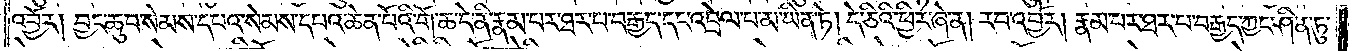འབྱོར། བྱང་ཆུབ་སེམས་དཔའ་སེམས་དཔའ་ཆེན་པོའི་གོ་ཆ་དེ་ནི་རྣམ་པར་ཐར་པ་བརྒྱད་དང་འབྲེལ་བ་མ་ཡིན་ཏེ། དེ་ཅིའི་ཕྱིར་ཞེ་ན། རབ་འབྱོར། རྣམ་པར་ཐར་པ་བརྒྱད་ཀྱང་ཤིན་ཏུ་
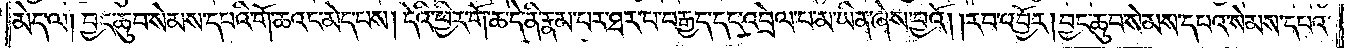མེད་ལ། བྱང་ཆུབ་སེམས་དཔའི་གོ་ཆའང་མེད་པས། དེའི་ཕྱིར་གོ་ཆ་དེ་ནི་རྣམ་པར་ཐར་པ་བརྒྱད་དང་འབྲེལ་པ་མ་ཡིན་ཞེས་བྱའོ། །རབ་འབྱོར། བྱང་ཆུབ་སེམས་དཔའ་སེམས་དཔའ་
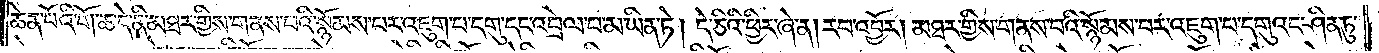ཆེན་པོའི་གོ་ཆ་དེ་ནི་མཐར་གྱིས་གནས་པའི་སྙོམས་པར་འཇུག་པ་དགུ་དང་འབྲེལ་བ་མ་ཡིན་ཏེ། དེ་ཅིའི་ཕྱིར་ཞེ་ན། རབ་འབྱོར། མཐར་གྱིས་གནས་པའི་སྙོམས་པར་འཇུག་པ་དགུའང་ཤིན་ཏུ་
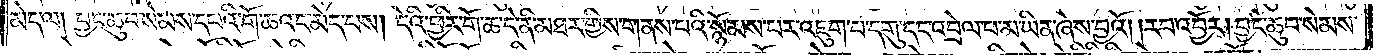མེད་ལ། བྱང་ཆུབ་སེམས་དཔའི་གོ་ཆའང་མེད་པས། དེའི་ཕྱིར་གོ་ཆ་དེ་ནི་མཐར་གྱིས་གནས་པའི་སྙོམས་པར་འཇུག་པ་དགུ་དང་འབྲེལ་པ་མ་ཡིན་ཞེས་བྱའོ། །རབ་འབྱོར། བྱང་ཆུབ་སེམས་
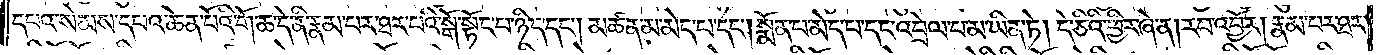དཔའ་སེམས་དཔའ་ཆེན་པོའི་གོ་ཆ་དེ་ནི་རྣམ་པར་ཐར་པའི་སྒོ་སྟོང་པ་ཉིད་དང༌། མཚན་མ་མེད་པ་དང༌། སྨོན་པ་མེད་པ་དང་འབྲེལ་བ་མ་ཡིན་ཏེ། དེ་ཅིའི་ཕྱིར་ཞེ་ན། རབ་འབྱོར། རྣམ་པར་ཐར་
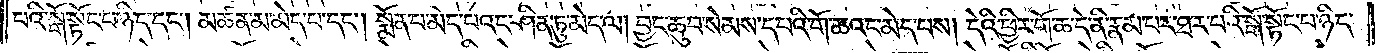པའི་སྒོ་སྟོང་པ་ཉིད་དང༌། མཚན་མ་མེད་པ་དང༌། སྨོན་པ་མེད་པའང་ཤིན་ཏུ་མེད་ལ། བྱང་ཆུབ་སེམས་དཔའི་གོ་ཆའང་མེད་པས། དེའི་ཕྱིར་གོ་ཆ་དེ་ནི་རྣམ་པར་ཐར་པའི་སྒོ་སྟོང་པ་ཉིད་
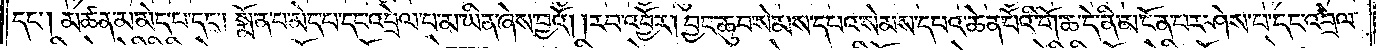དང༌། མཚན་མ་མེད་པ་དང༌། སྨོན་པ་མེད་པ་དང་འབྲེལ་པ་མ་ཡིན་ཞེས་བྱའོ། །རབ་འབྱོར། བྱང་ཆུབ་སེམས་དཔའ་སེམས་དཔའ་ཆེན་པོའི་གོ་ཆ་དེ་ནི་མངོན་པར་ཤེས་པ་དང་འབྲེལ་
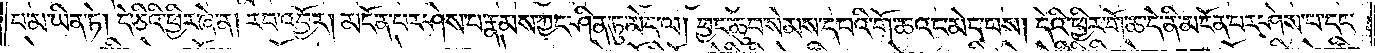པ་མ་ཡིན་ཏེ། དེ་ཅིའི་ཕྱིར་ཞེ་ན། རབ་འབྱོར། མངོན་པར་ཤེས་པ་རྣམས་ཀྱང་ཤིན་ཏུ་མེད་ལ། བྱང་ཆུབ་སེམས་དཔའི་གོ་ཆའང་མེད་པས། དེའི་ཕྱིར་གོ་ཆ་དེ་ནི་མངོན་པར་ཤེས་པ་དང་
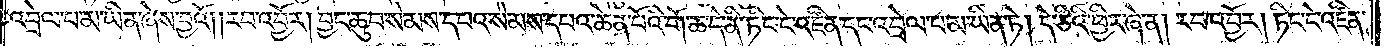འབྲེལ་པ་མ་ཡིན་ཞེས་བྱའོ། །རབ་འབྱོར། བྱང་ཆུབ་སེམས་དཔའ་སེམས་དཔའ་ཆེན་པོའི་གོ་ཆ་དེ་ནི་ཏིང་ངེ་འཛིན་དང་འབྲེལ་པ་མ་ཡིན་ཏེ། དེ་ཅིའི་ཕྱིར་ཞེ་ན། རབ་འབྱོར། ཏིང་ངེ་འཛིན་
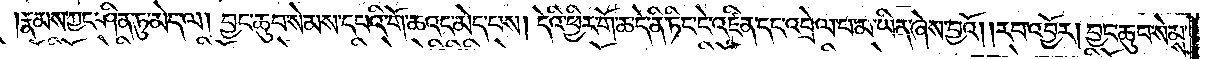རྣམས་ཀྱང་ཤིན་ཏུ་མེད་ལ། བྱང་ཆུབ་སེམས་དཔའི་གོ་ཆའང་མེད་པས། དེའི་ཕྱིར་གོ་ཆ་དེ་ནི་ཏིང་ངེ་འཛིན་དང་འབྲེལ་པ་མ་ཡིན་ཞེས་བྱའོ། །རབ་འབྱོར། བྱང་ཆུབ་སེམས་
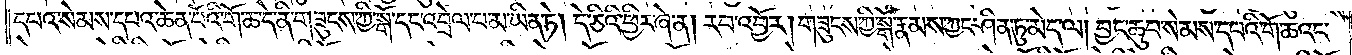དཔའ་སེམས་དཔའ་ཆེན་པོའི་གོ་ཆ་དེ་ནི་གཟུངས་ཀྱི་སྒོ་དང་འབྲེལ་པ་མ་ཡིན་ཏེ། དེ་ཅིའི་ཕྱིར་ཞེ་ན། རབ་འབྱོར། གཟུངས་ཀྱི་སྒོ་རྣམས་ཀྱང་ཤིན་ཏུ་མེད་ལ། བྱང་ཆུབ་སེམས་དཔའི་གོ་ཆའང་
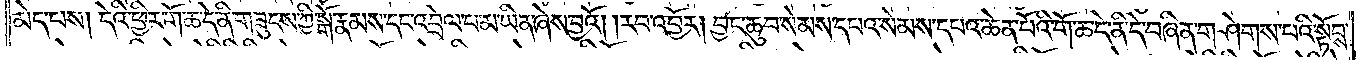མེད་པས། དེའི་ཕྱིར་གོ་ཆ་དེ་ནི་གཟུངས་ཀྱི་སྒོ་རྣམས་དང་འབྲེལ་པ་མ་ཡིན་ཞེས་བྱའོ། །རབ་འབྱོར། བྱང་ཆུབ་སེམས་དཔའ་སེམས་དཔའ་ཆེན་པོའི་གོ་ཆ་དེ་ནི་དེ་བཞིན་གཤེགས་པའི་སྟོབས་
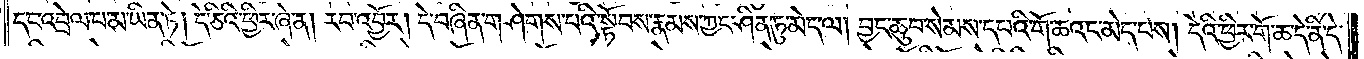དང་འབྲེལ་པ་མ་ཡིན་ཏེ། དེ་ཅིའི་ཕྱིར་ཞེ་ན། རབ་འབྱོར། དེ་བཞིན་གཤེགས་པའི་སྟོབས་རྣམས་ཀྱང་ཤིན་ཏུ་མེད་ལ། བྱང་ཆུབ་སེམས་དཔའི་གོ་ཆའང་མེད་པས། དེའི་ཕྱིར་གོ་ཆ་དེ་ནི་དེ་
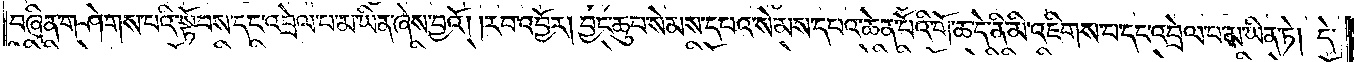བཞིན་གཤེགས་པའི་སྟོབས་དང་འབྲེལ་པ་མ་ཡིན་ཞེས་བྱའོ། །རབ་འབྱོར། བྱང་ཆུབ་སེམས་དཔའ་སེམས་དཔའ་ཆེན་པོའི་གོ་ཆ་དེ་ནི་མི་འཇིགས་པ་དང་འབྲེལ་བ་མ་ཡིན་ཏེ། དེ་
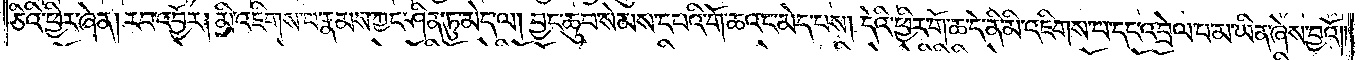ཅིའི་ཕྱིར་ཞེ་ན། རབ་འབྱོར། མི་འཇིགས་པ་རྣམས་ཀྱང་ཤིན་ཏུ་མེད་ལ། བྱང་ཆུབ་སེམས་དཔའི་གོ་ཆའང་མེད་པས། དེའི་ཕྱིར་གོ་ཆ་དེ་ནི་མི་འཇིགས་པ་དང་འབྲེལ་པ་མ་ཡིན་ཞེས་བྱའོ། །
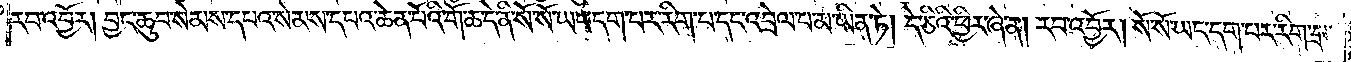རབ་འབྱོར། བྱང་ཆུབ་སེམས་དཔའ་སེམས་དཔའ་ཆེན་པོའི་གོ་ཆ་དེ་ནི་སོ་སོ་ཡང་དག་པར་རིག་པ་དང་འབྲེལ་པ་མ་ཡིན་ཏེ། དེ་ཅིའི་ཕྱིར་ཞེ་ན། རབ་འབྱོར། སོ་སོ་ཡང་དག་པར་རིག་པ་
